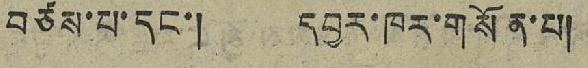བཙས་པ་དང་། དབྱར་ཁར་གསོན་པ།
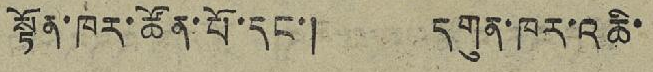སྟོན་ཁར་ཚོན་པོ་དང་། དགུན་ཁར་འཆི་
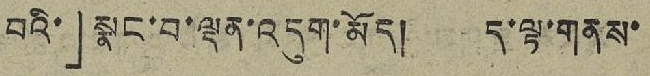བའི་」སྣང་བ་ལྡན་འདུག་མོད། ད་ལྟ་གནས་
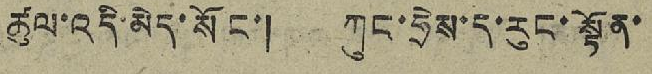ཚུལ་འདི་མེད་སོང་། ཀུང་ཧྲེས་ད་རུང་སྟོན་
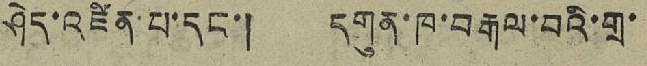ཤེད་འཛིན་པ་དང་། དགུན་ཁ་བརྒལ་བའི་གྲ་
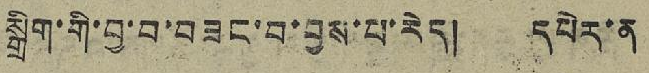སྒྲིག་གི་བྱ་བ་བཟང་བ་བྱས་པ་རེད། དཔེར་ན
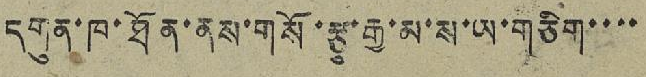དགུན་ཁ་ཐོན་ནས་གསོ་རྩྭ་རྒྱ་མ་ས་ཡ་གཅིག་་་་
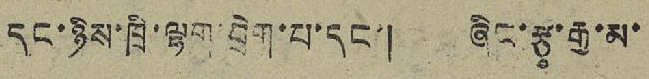དང་ཉིས་ཁྲི་ལྷག་བྲེག་པ་དང་། ཞིང་རྩྭ་རྒྱ་མ་
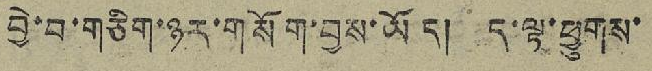བྱེ་བ་གཅིག་ཉར་གསོག་བྱས་ཡོད། ད་ལྟ་ཕྱུགས་
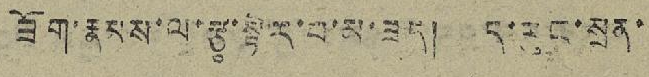ཟོག་རྣམས་ལ་རྩྭ་སྟེ་ར་བ་མ་ཟད། ད་རུང་སྲན་
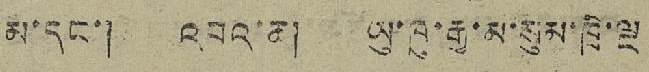མ་དང་། འབའ་ཆ། ཡུ་ཁུ་རྒྱ་མ་སུམ་ཁྲི་ལྔ
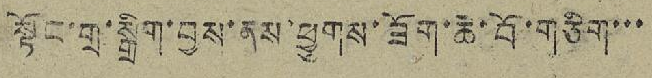སྟོང་གྲ་སྒྲིག་བྱས་ནས་ཕྱུགས་ཟོག་ཆེ་བོ་གཅིག་་་
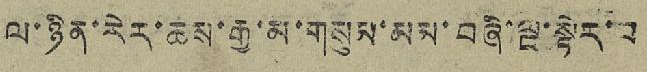ལ་ཉིན་རེར་ཆས་རྒྱ་མ་གསུམ་མམ་བཞི་ལྔ་སྟེར་བ
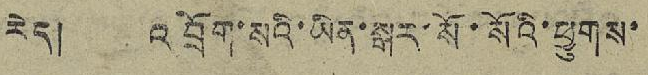རེད། འབྲོག་སའི་ཡིན་སྒར་སོ་སོའི་ཕྱུགས་
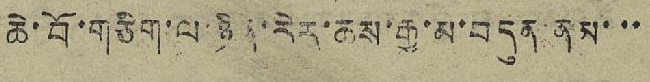ཆེ་བོ་གཅིག་ལ་ཉིན་རེར་ཆས་རྒྱ་མ་བདུན་ནམ་་་
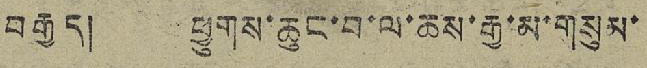བརྒྱད། ཕྱུགས་ཆུང་བ་ལ་ཆས་རྒྱ་མ་གསུམ་
